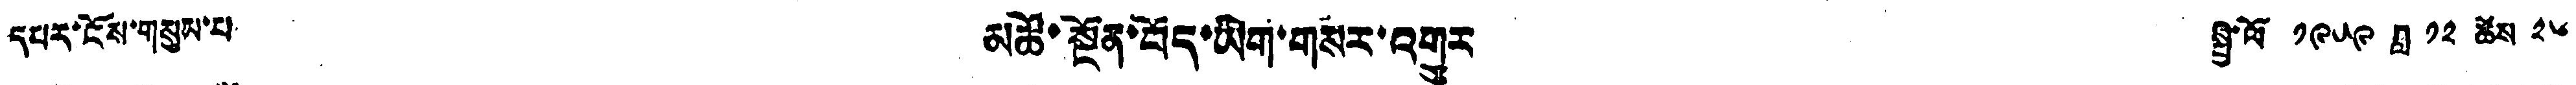དཔར་ངོས་གསུམ་པ། མཚོ་སྔོན་བོད་ཡིག་གསར་འགྱུར སྤྱི་ལོ ༡༩༥༩ ཟླ ༡༢ ཚེས ༢༦
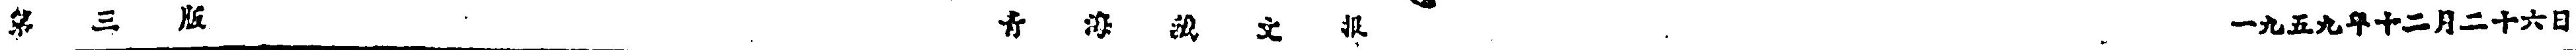第 三 版 青 海 藏 文 报 一九五九年十二月二十六日
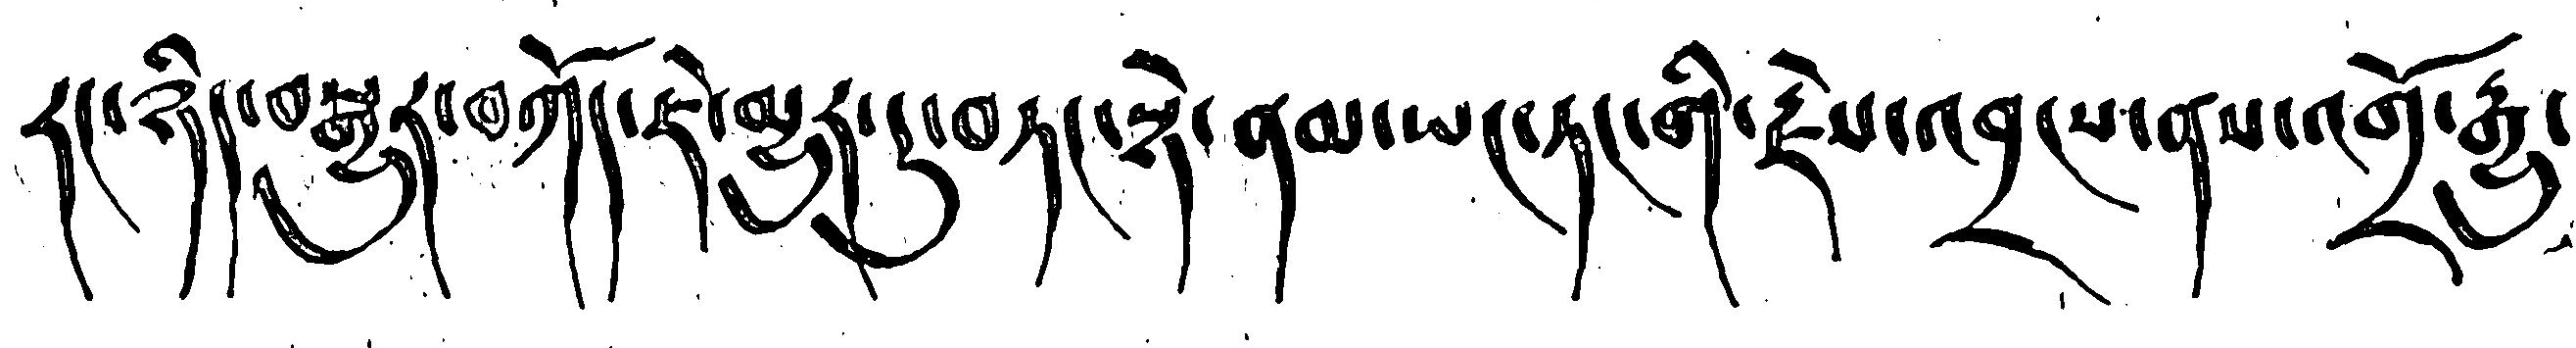རང་ཉིད་བསྒྱུར་བཀོད་ཇེ་མྱུར་དུ་བཏང་སྟེ་ནམ་ཡང་ཏང་གི་རྗེས་འབྲངས་ནས་འགྲོ་རྒྱུ་
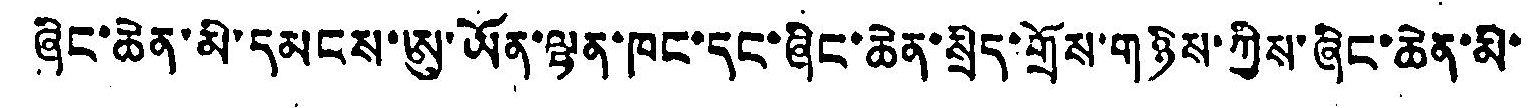ཞིང་ཆེན་མི་དམངས་ཨུ་ཡོན་ལྷན་ཁང་དང་ཞིང་ཆེན་སྲིད་གྲོས་གཉིས་ཀྱིས་ཞིང་ཆེན་མི་
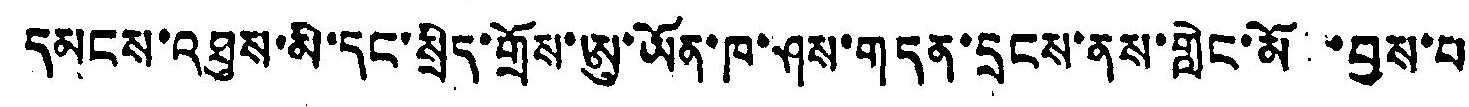དམངས་འཐུས་མི་དང་སྲིད་གྲོས་ཨུ་ཡོན་ཁ་ཤས་གདན་དྲངས་ནས་གླེང་མོ ་བྱས་པ།
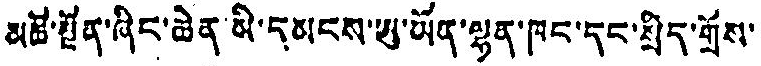མཚོ་སྔོན་ཞིང་ཆེན་མི་དམངས་ཨུ་ཡོན་ལྷན་ཁང་དང་སྲིད་གྲོས་
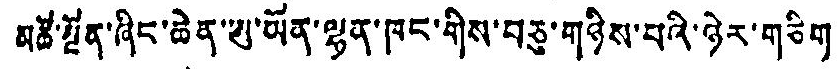མཚོ་སྔོན་ཞིང་ཆེན་ཨུ་ཡོན་ལྷན་ཁང་གིས་བཅུ་གཉིས་པའི་ཉེར་གཅིག
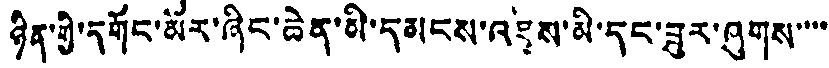ཉིན་གྱི་དགོང་མོར་ཞིང་ཆེན་མི་དམངས་འཐུས་མི་དང་ཟུར་ཞུགས་་་་་
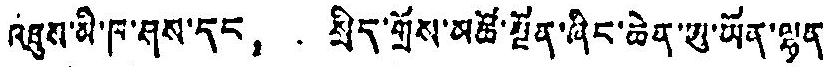འཐུས་མི་ཁ་ཤས་དང， སྲིད་གྲོས་མཚོ་སྔོན་ཞིང་ཆེན་ཨུ་ཡོན་ལྷན་
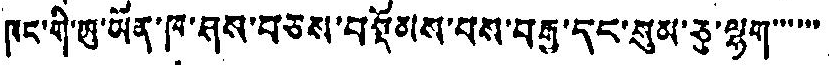ཁང་གི་ཡུ་ཡོན་ཁ་ཤས་བཅས་བསྡོམས་པས་བརྒྱ་དང་སུམ་ཅུ་ལྷག་་་་་་
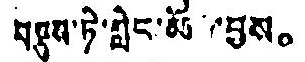བལྕས་ཏེ་གླེང་མོ་བྱས。
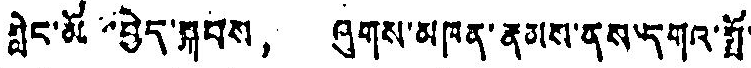གླེང་མོ་་བྱེད་སྐབས， ཞུགས་མཁན་རྣམས་ནས་དགའ་སྤྲོ་
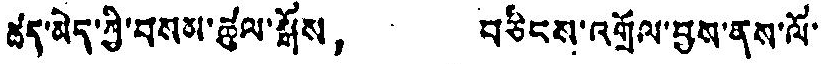ཚད་མེད་ཀྱི་བསམ་ཚུལ་སྒོས， བཅིངས་འགྲོལ་བྱས་ནས་ལོ་
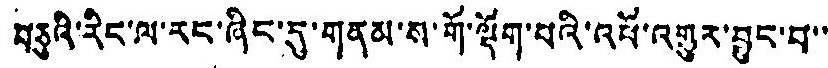བཅུའི་རིང་ལ་རང་ཞིང་དུ་གནམ་ས་གོ་ལྡོག་པའི་འབོ་འགྱུར་བྱུང་བ་་
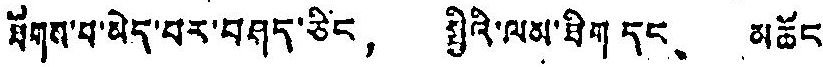ཐོགས་པ་མེད་པར་བཤད་ཅིང， སྤྱིའི་ལམ་ཐིག དང、 མཆོང
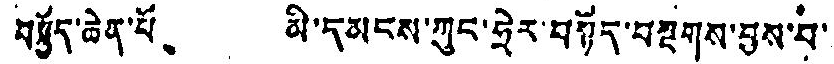བསྟོད་ཆེན་པོ、 མི་དམངས་ཀུང་ཧྲེར་བསྟོད་བསྔགས་བྱས་པ་
